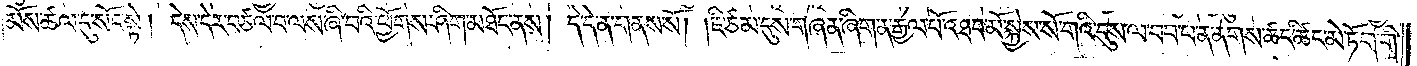མོས་ཚལ་དུ་སོང་སྟེ། དེས་དེར་བཙལ་བ་ལས་ཞི་བའི་ཕྱོགས་ཤིག་མཐོང་ནས། དེ་དེ་ན་གནས་སོ། །ཇི་ཙམ་དུས་གཞན་ཞིག་ན་རྒྱལ་པོ་འཐབ་མོ་སྐྱེས་སོ་གའི་དུས་ལ་བབ་པ་ན་ནགས་ཚང་ཚིང་མེ་ཏོག་གི་
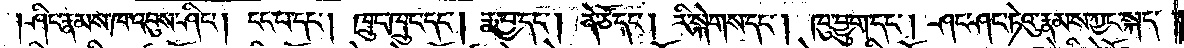ཤིང་རྣམས་ཁ་འབུས་ཤིང༌། ངང་པ་དང༌། ཁྲུང་ཁྲུང་དང༌། རྨ་བྱ་དང༌། ནེ་ཙོ་དང༌། རི་སྐེགས་དང༌། ཁུ་བྱུག་དང༌། ཤང་ཤང་ཏེའུ་རྣམས་ཀྱང་སྐད་
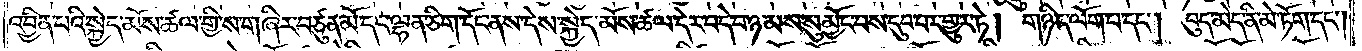འབྱིན་པའི་སྐྱེད་མོས་ཚལ་གྱི་ས་གཞིར་བཙུན་མོ་དང་ལྷན་ཅིག་དོང་ནས་དེས་སྐྱེད་མོས་ཚལ་དེར་བདེ་བ་ཉམས་སུ་མྱོང་བས་དུབ་པར་གྱུར་ཏེ། གཉིད་ལོག་པ་དང༌། བུད་མེད་ནི་མེ་ཏོག་དང༌།
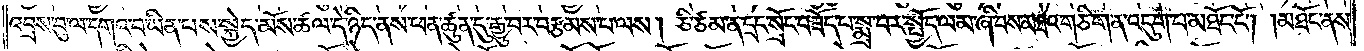འབྲས་བུ་ལ་དགའ་བ་ཡིན་པས་སྐྱེད་མོས་ཚལ་དེ་ཉིད་ནས་ཕན་ཚུན་དུ་རྒྱུ་བར་བརྩམས་པ་ལས། ཅི་ཙམ་ན་དྲང་སྲོང་བཟོད་པ་སྨྲ་བར་སྤྱོད་ལམ་ཞི་བས་མཐའ་གཅིག་ན་འདུག་པ་མཐོང་ངོ༌། །མཐོང་ནས་
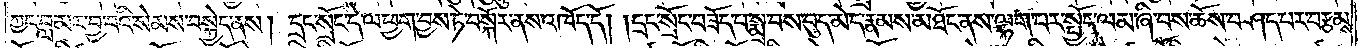ཀྱང་བླ་མར་བྱ་བའི་སེམས་བསྐྱེད་ནས། དྲང་སྲོང་དེ་ལ་ཕྱག་བྱས་ཏེ་བསྐོར་ནས་འཁོད་དོ། །དྲང་སྲོང་བཟོད་པ་སྨྲ་བས་བུད་མེད་རྣམས་མཐོང་ནས་ལྷག་པར་སྤྱོད་ལམ་ཞི་བས་ཆོས་བཤད་པར་བརྩམས་
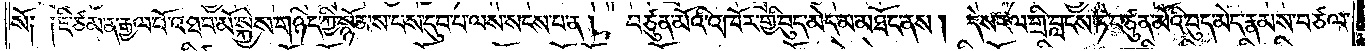སོ༑ ༑ཇི་ཙམ་ན་རྒྱལ་པོ་འཐབ་མོ་སྐྱེས་གཉིད་ཀྱི་སྙོམས་པས་དུབ་པ་ལས་སངས་པ་ན། བཙུན་མོའི་འཁོར་གྱི་བུད་མེད་མ་མཐོང་ནས། དེས་རལ་གྲི་བླངས་ཏེ་བཙུན་མོའི་བུད་མེད་རྣམས་བཙལ་
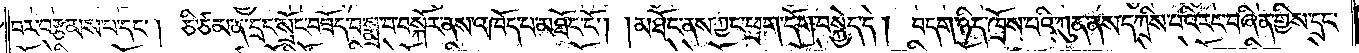བར་བརྩམས་པ་དང༌། ཅི་ཙམ་ན་དྲང་སྲོང་བཟོད་པ་སྨྲ་བ་བསྐོར་ནས་འཁོད་པ་མཐོང་ངོ༌། །མཐོང་ནས་ཀྱང་ཕྲག་དོག་བསྐྱེད་དེ། བདག་ཉིད་ཁྲོས་པའི་ཀུན་ནས་དཀྲིས་པའི་རང་བཞིན་གྱིས་དྲང་
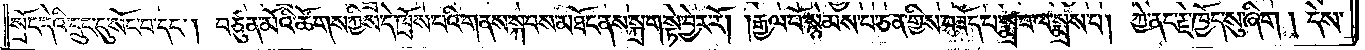སྲོང་དེའི་དྲུང་དུ་སོང་བ་དང༌། བཙུན་མོའི་ཚོགས་ཀྱིས་དེ་ཁྲོས་པའི་གནས་སྐབས་མཐོང་ནས་སྐྲག་སྟེ་བྱེར་རོ། །རྒྱལ་པོ་སྙེམས་པ་ཅན་གྱིས་བཟོད་པ་སྨྲ་བ་ལ་སྨྲས་པ། ཀྱེ་ནང་རྗེ་ཁྱོད་སུ་ཞིག། དེས་
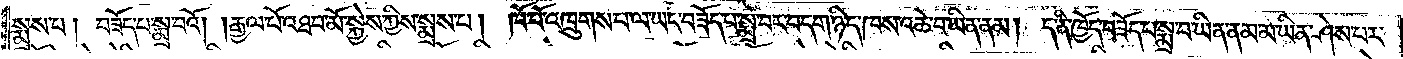སྨྲས་པ། བཟོད་པ་སྨྲ་བའོ། །རྒྱལ་པོ་འཐབ་མོ་སྐྱེས་ཀྱིས་སྨྲས་པ། ཁོ་བོ་འཁྲུགས་པ་ལ་ཡང་བཟོད་པ་སྨྲ་བར་བདག་ཉིད་ཁས་འཆེ་བ་ཡིན་ནམ། ད་ནི་ཁྱོད་བཟོད་པ་སྨྲ་བ་ཡིན་ནམ་མ་ཡིན་ཤེས་པར་
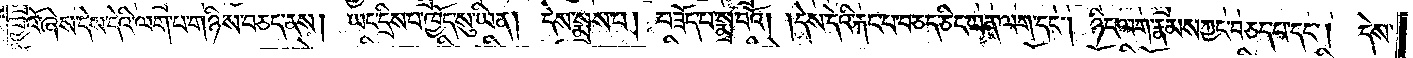བྱའོ་ཞེས་དེས་དེའི་ལག་པ་གཉིས་བཅད་ནས། ཡང་དྲིས་པ་ཁྱོད་སུ་ཡིན། དེས་སྨྲས་པ། བཟོད་པ་སྨྲ་བའོ། །དེས་དེའི་རྐང་པ་བཅད་ཅིང་ཡན་ལག་དང༌། ཉིང་ལག་རྣམས་ཀྱང་བཅད་པ་དང༌། དེས་
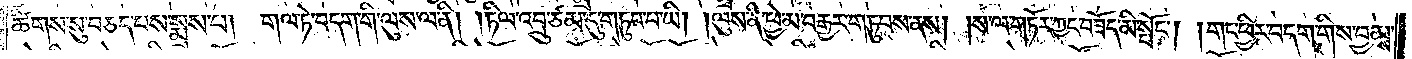ཚིགས་སུ་བཅད་པས་སྨྲས་པ། གལ་ཏེ་བདག་གི་ལུས་ལ་ནི། །ཏིལ་འབྲུ་ཙམ་དུ་གཏུབ་པ་ཡི། །ལུས་ནི་ཕྱེ་མ་བརྒྱར་གཏུབས་ནས། །ས་ལ་གཏོར་ཀྱང་བཟོད་མི་སྤོང༌། །གང་ཕྱིར་བདག་གིས་བྱམས་
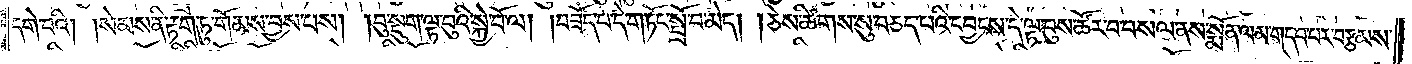དགེ་བའི། །སེམས་ནི་རྟག་ཏུ་གོམས་བྱས་པས། །བུ་སྡུག་ལྟ་བུའི་སྐྱེ་བོ་ལ། །བཟོད་པ་དེ་གཏོང་སྤྲོ་བ་མེད། །ཅེས་ཚིགས་སུ་བཅད་པའི་དབྱངས་དེ་ལྟ་བུས་ཚོར་བ་བསལ་ནས་སྨོན་ལམ་གདབ་པར་བརྩམས་
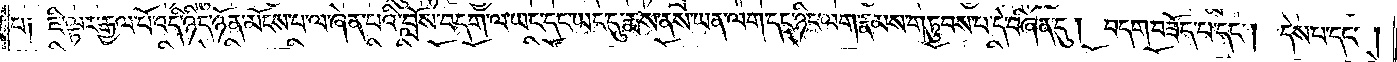པ༑ ཇི་ལྟར་རྒྱལ་པོ་འདི་ཉིད་ཉོན་མོངས་པ་ལ་ཞེན་པའི་བློས་བདག་ལ་ཡང་དང་ཡང་དུ་རྨས་ནས་ཡན་ལག་དང་ཉིང་ལག་རྣམས་གཏུབས་པ་དེ་བཞིན་དུ། བདག་བཟོད་པ་དང༌། དེས་པ་དང༌།
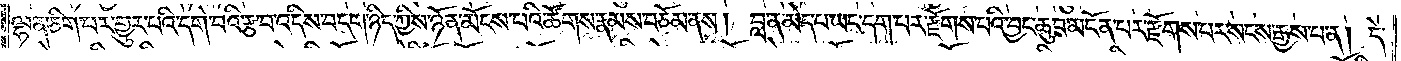ལྷན་ཅིག་པར་གྱུར་པའི་དགེ་བའི་རྩ་བ་འདིས་བདག་ཉིད་ཀྱིས་ཉོན་མོངས་པའི་ཚོགས་རྣམས་བཅོམ་ནས། བླ་ན་མེད་པ་ཡང་དག་པར་རྫོགས་པའི་བྱང་ཆུབ་མངོན་པར་རྫོགས་པར་སངས་རྒྱས་པ་ན། དེ་
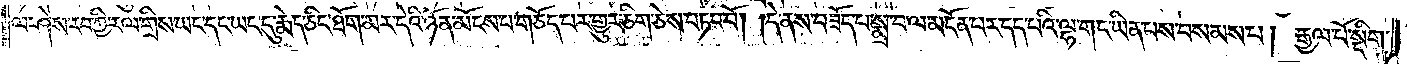ལ་ཤེས་རབ་ཀྱི་རལ་གྲིས་ཡང་དང་ཡང་དུ་རྨེད་ཅིང་ཐོག་མར་དེའི་ཉོན་མོངས་པ་གཅོད་པར་གྱུར་ཅིག་ཅེས་བཏབ་བོ། །དེ་ནས་བཟོད་པ་སྨྲ་བ་ལ་མངོན་པར་དད་པའི་ལྷ་གང་ཡིན་པས་བསམས་པ། རྒྱལ་པོ་སྡིག་
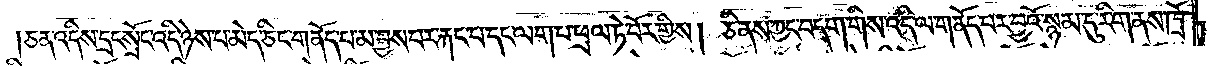ཅན་འདིས་དྲང་སྲོང་འདི་ཉེས་པ་མེད་ཅིང་གནོད་པ་མ་བྱས་པར་རྐང་པ་དང་ལག་པ་ཕྲལ་ཏེ་བོར་གྱིས། ཅི་ནས་ཀྱང་བདག་གིས་འདི་ལ་གནོད་པར་བྱའོ་སྙམ་དུ་རིག་ནས་ཁྲོ་
